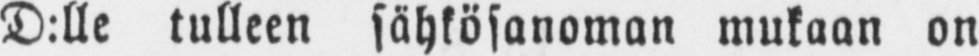D:lle tulleen sähkösanoman mukaan on
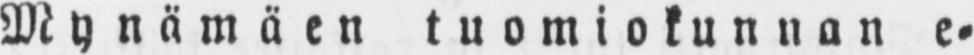Mynämäen tuomiokunnan e-
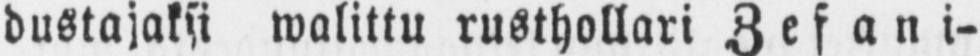dustajaksi walittu rusthollari Zefani-
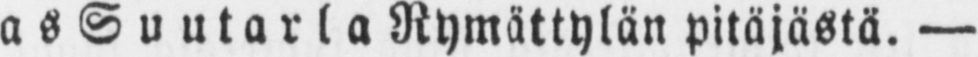as Suutarla Rymättylän pitäjästä. —
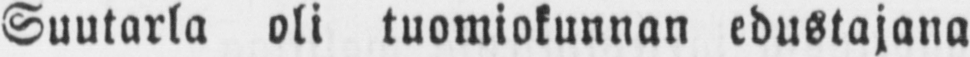Suutarla oli tuomiokunnan edustajana
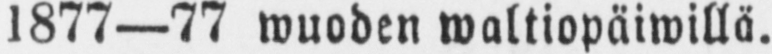1877 —77 wuoden waltiopäiwillä.
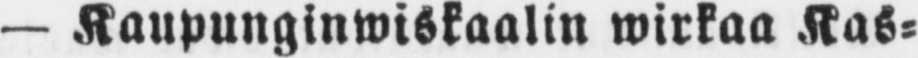— Kaupunginwiskaalin wirkaa Kas-
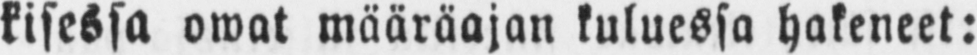kisessa owat määräajan kuluessa hakeneet:
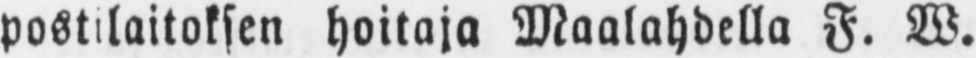postilaitoksen hoitaja Maalahdella F. W.
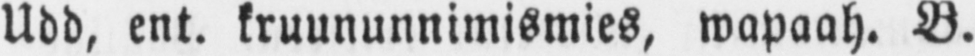Udd, ent. kruununnimismies, wapaah. B.
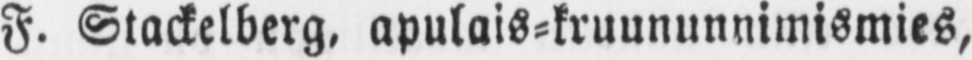F. Stackelberg, apulais-kruununnimismies,
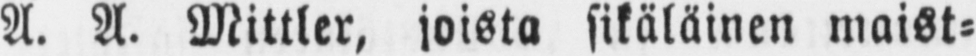A. A. Mittler, joista sikäläinen maist-
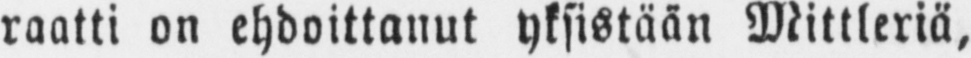raatti on ehdoittanut yksistään Mittleriä,
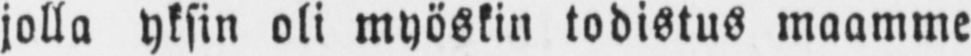jolla yksin oli myöskin todistus maamme
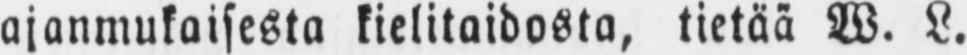ajanmukaisesta kielitaidosta, tietää W. L.
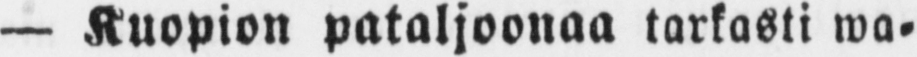— Kuopion pataljoonaa tarkasti wa-
